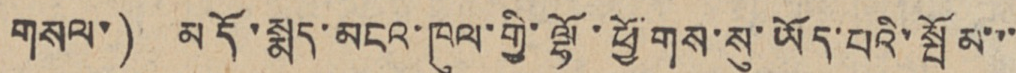གསལ་) མདོ་སྨད་མངའ་ཁུལ་གྱི་ལྷོ་ཕྱོགས་སུ་ཡོད་པའི་སྤོམ་་་
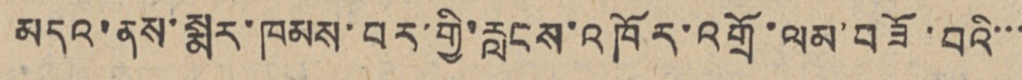མདའ་ནས་སྨར་ཁམས་བར་གྱི་རླངས་འཁོར་འགྲོ་ལམ་བཟོ་བའི་་་
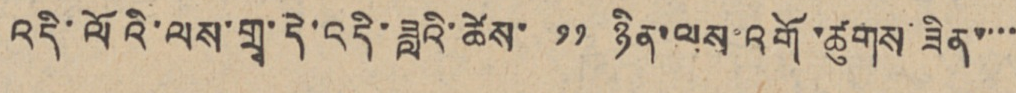འདི་ལོའི་ལས་གྲྭ་དེ་འདི་ཟླའི་ཚེས་ ༡༡ ཉིན་ལས་འགོ་ཚུགས་ཟིན་་་་
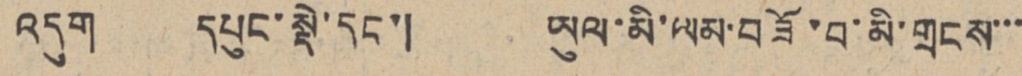འདུག དཔུང་སྡེ་དང་། ཡུལ་མི་ལམ་བཟོ་བ་མི་གྲངས་་་
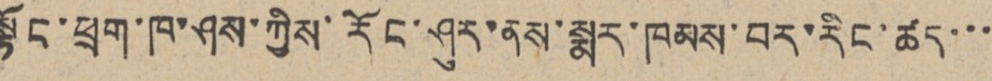སྟོང་ཕྲག་ཁག་ཤས་ཀྱིས་རོང་ཤུར་ནས་སྨར་ཁམས་བར་རིང་ཚད་་་
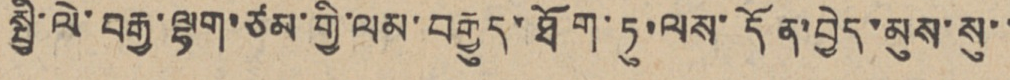སྤྱི་ལེ་བརྒྱ་ལྷག་ཙམ་གྱི་ལམ་བརྒྱུད་ཐོག་ཏུ་ལས་དོན་བྱེད་མུས་སུ་་
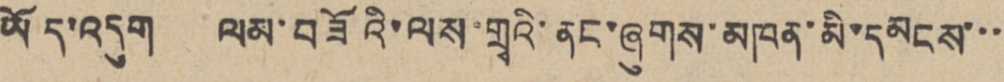ཡོད་འདུག ལམ་བཟོའི་ལས་གྲྭའི་ནང་ཞུགས་མཁན་མི་དམངས་་་
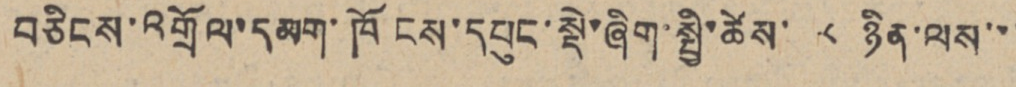བཅིངས་འགྲོལ་དམག་ཁོངས་དཔུང་སྡེ་ཞིག་སྤྱི་ཚེས་ ༨ ཉིན་ལས་་་
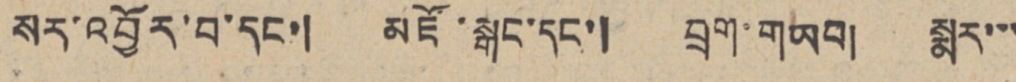སར་འབྱོར་བ་དང་། མཛོ་སྒང་དང་། བྲག་གཡབ། སྨར་་་
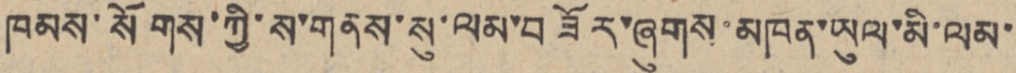ཁམས་སོགས་ཀྱི་ས་གནས་སུ་ལམ་བཟོར་ཞུགས་མཁན་ཡུལ་མི་ལམ་
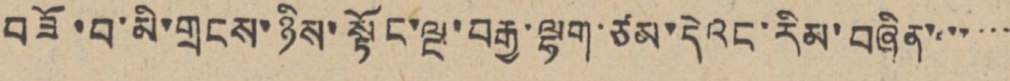བཟོ་བ་མི་གྲངས་ཉིས་སྟོང་ལྔ་བརྒྱ་ལྷག་ཙམ་དེའང་རིམ་བཞིན་་་་་་་
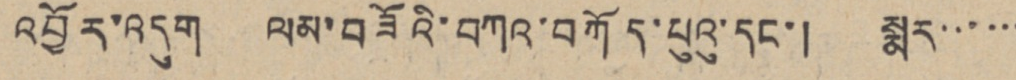འབྱོར་འདུག ལམ་བཟོའི་བཀའ་བཀོད་པུའུ་དང་། སྨར་་་་་་
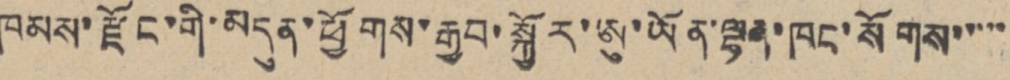ཁམས་རྫོང་གི་མདུན་ཕྱོགས་རྒྱབ་སྐྱོར་ཨུ་ཡོན་ལྷན་ཁང་སོགས་་་་་
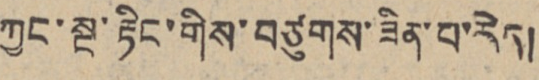ཀྱང་སྔ་རྟིང་གིས་བཙུགས་ཟིན་པ་རེད།
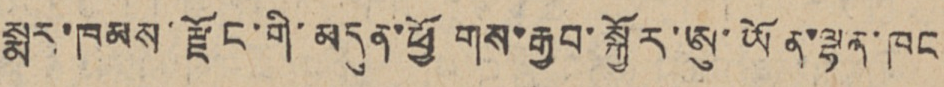སྨར་ཁམས་རྫོང་གི་མདུན་ཕྱོགས་རྒྱབ་སྐྱོར་ཨུ་ཡོན་ལྷན་ཁང
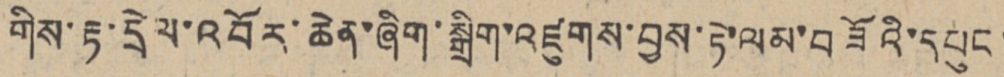གིས་རྟ་དྲེལ་འབོར་ཆེན་ཞིག་སྒྲིག་འཛུགས་བྱས་ཏེ་ལམ་བཟོའི་དཔུང་
